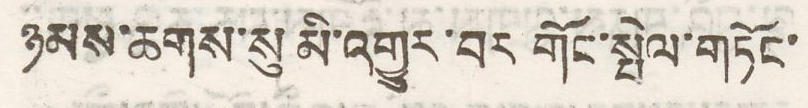ཉམས་ཆགས་སུ མི་འགྱུར་བར གོང་སྤེལ་གཏོང་
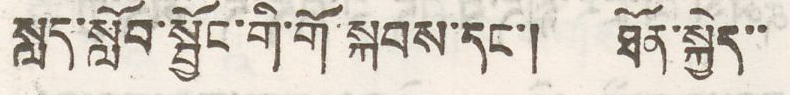སླད་སློབ་སྦྱོང་གི་གོ་སྐབས་དང་། ཐོན་སྐྱེད་་
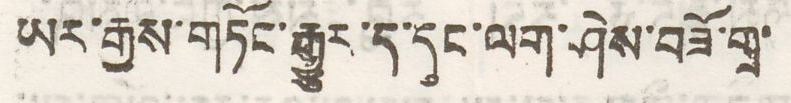ཡར་རྒྱས་གཏོང་རྒྱུར་ད་དུང་ལག་ཤེས་བཟོ་གྲྭ་
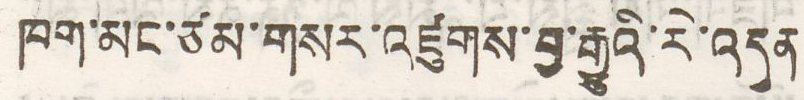ཁག་མང་ཙམ་གསར་འཛུགས་བྱ་རྒྱུའི་རི་འདུན
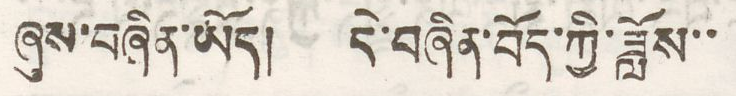ཞུས་བཞིན་ཡོད། དེ་བཞིན་བོད་ཀྱི་ཟློས་་
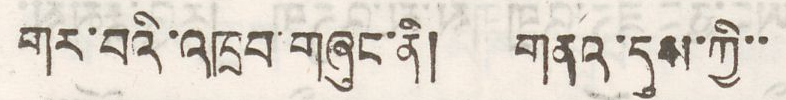གར་བའི་འཁྲབ་གཞུང་ནི། གནའ་དུས་ཀྱི་་
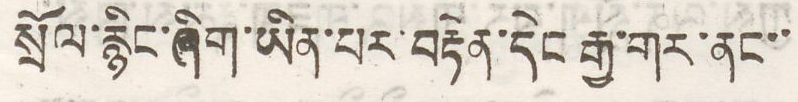སྲོལ་རྙིང་ཞིག་ཡིན་པར་བརྟེན་དེང་རྒྱ་གར་ནང་་
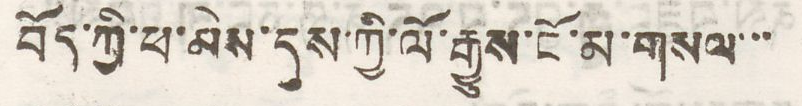བོད་ཀྱི་ཕ་མེས་དུས་ཀྱི་ལོ་རྒྱུས་ངོ་མ་གསལ་་་
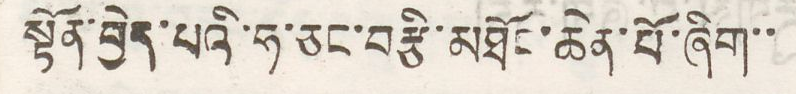སྟོན་བྱེད་པའི་ཧ་ཅང་བརྩི་མཐོང་ཆེན་པོ་ཞིག་་
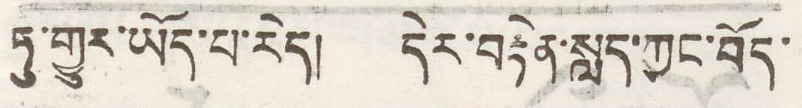ཏུ་གྱུར་ཡོད་པ་རེད། དེར་བརྟེན་སླད་ཀྱང་བོད་
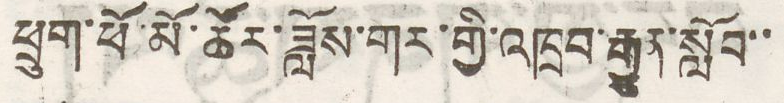ཕྲུག་ཕོ་མོ་ཚོར་ཟློས་གར་གྱི་འཁྲབ་རྒྱུན་སློབ་་
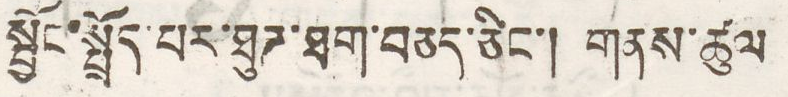སྦྱོང་སྤྲོད་པར་ཐུཌ་ཐག་བཅད་ཅིང་། གནས་ཚུལ
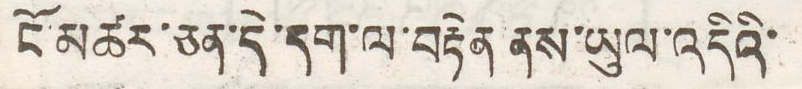ངོ་མཚར་ཅན་དེ་དག་ལ་བརྟན ནས་ཡུལ་འདིའི་
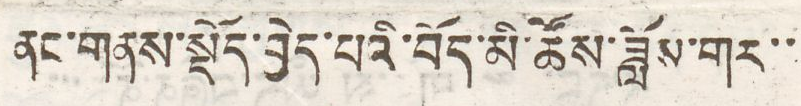ནང་གནས་སྡོད་བྱེད་པའི་བོད་མི་ཚོས་ཟློས་གར་་
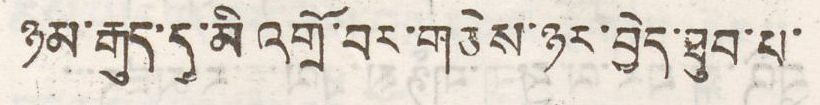ཉམ་རྒུད་དུ་མི འགྲོ་བར་གཅེས་ཉར་བྱེད་ཐུབ་པ་
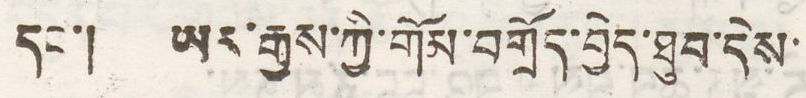དང་། ཡར་རྒྱས་ཀྱི་གོམ་བགྲོད་བྱེད་ཐུབ་དེས་
